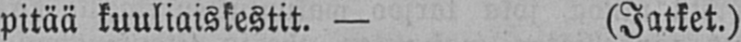pitää kuuliaiskestit. — (Jatket.)
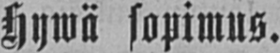Hywä sopimus.
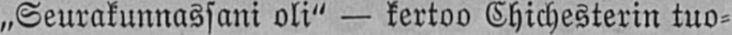„Seurakunnassani oli" — kertoo Chichesterin tuo-
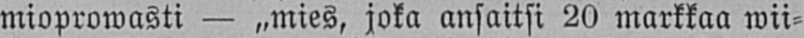mioprowasti — „mies, joka ansaitsi 20 markkaa wii-
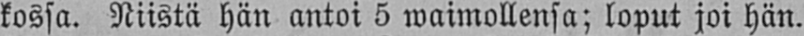kossa. Niistä hän antoi 5 waimollensa; loput joi hän.
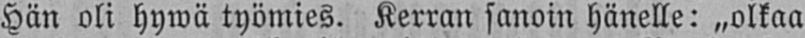Hän oli hywä työmies. Kerran sanoin hänelle: „olkaa
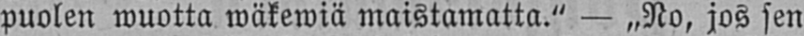puolen wuotta wäkewiä maistamatta." — „No, jos sen
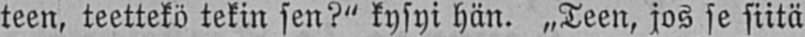teen, teettekö tekin sen?" kysyi hän. „Teen, jos se siitä
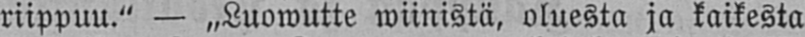riippuu." — „Luowutte wiinistä, oluesta ja kaikesta
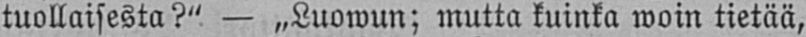tuollaisesta?" — „Luowun; mutta kuinka woin tietää,
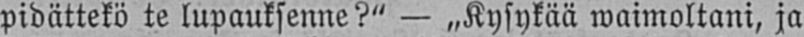pidättekö te lupauksenne?" — „Kysykää waimoltani, ja
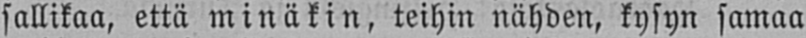sallikaa, että minäkin, teihin nähden, kysyn samaa
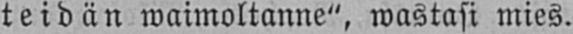teidän waimoltanne", wastasi mies.
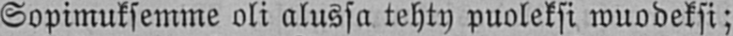Sopimuksemme oli alussa tehty puoleksi wuodeksi;
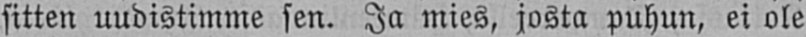sitten uudistimme sen. Ja mies, josta puhun, ei ole
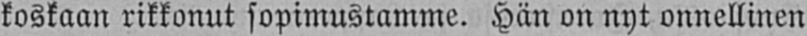koskaan rikkonut sopimustamme. Hän on nyt onnellinen
